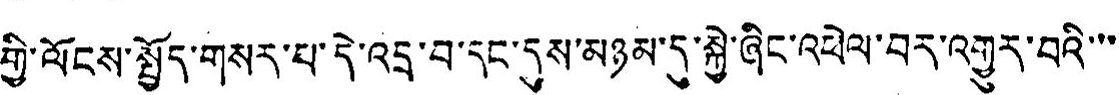གྱི་ལོངས་སྤྱོད་གསར་པ་དེ་འདྲ་བ་དང་དུས་མཉམ་དུ་སྐྱེ་ཞིང་འཕེལ་བར་འགྱུར་བའི་་་
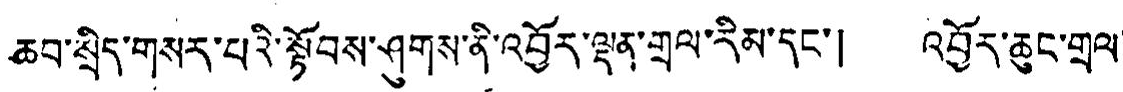ཆབ་སྲིད་གསར་པའི་སྟོབས་ཤུགས་ནི་འབྱོར་ལྡན་གྲལ་རིམ་དང་། འབྱོར་ཆུང་གྲལ་
